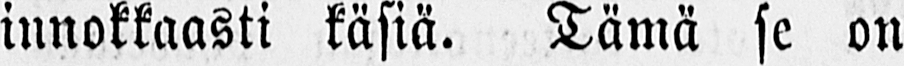innokkaasti käsiä. Tämä se on
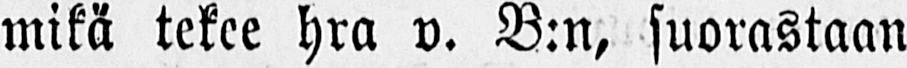mikä tekee hra v. B:n, suorastaan
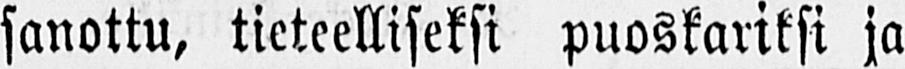sanottu, tieteelliseksi puoskariksi ja
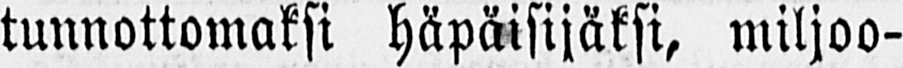tunnottomaksi häpäisijäksi, miljoo-
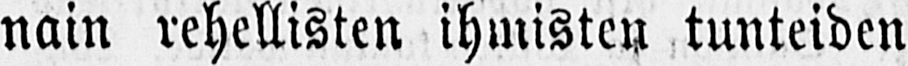nain rehellisten ihmisten tunteiden
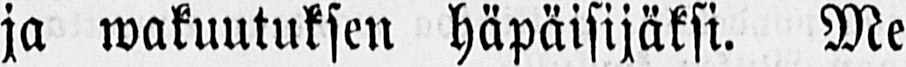ja wakuutuksen häpäisijäksi. Me
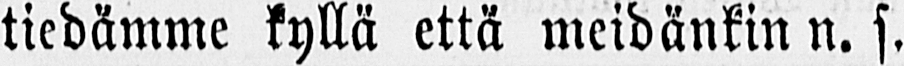tiedämme kyllä että meidänkin n. s.
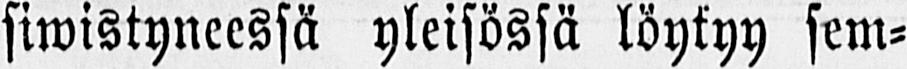siwistyneessä yleisössä löytyy sem-
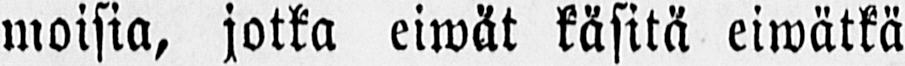moisia, jotka eiwät käsitä eiwätkä
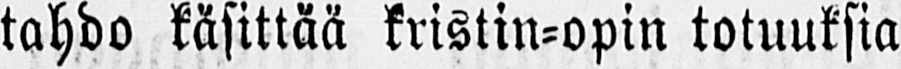tahdo käsittää kristin-opin totuuksia
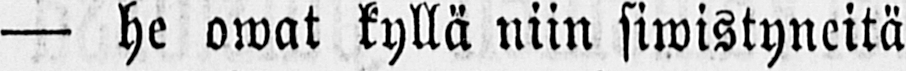— he owat kyllä niin siwistyneitä
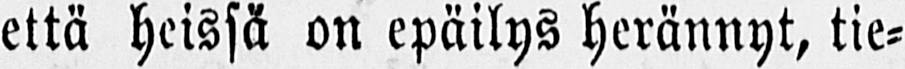että heissä on epäilys herännyt, tie-
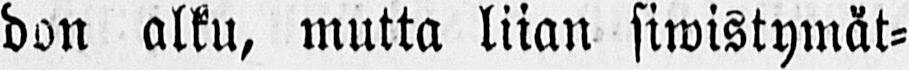don alku, mutta liian siwistymät-
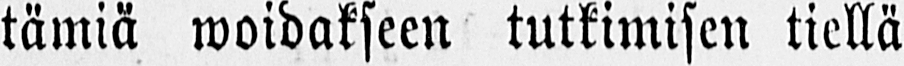tämiä woidakseen tutkimisen tiellä
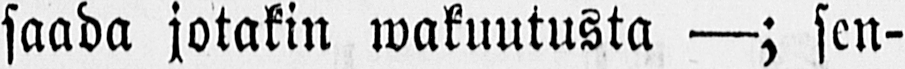saada jotakin wakuutusta —; sen-
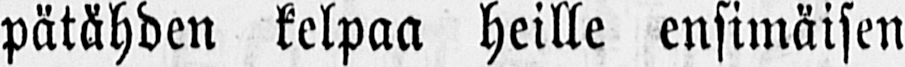pätähden kelpaa heille ensimäisen
